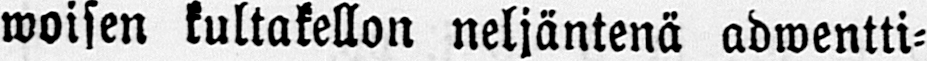woisen kultakellon neljäntenä adwentti-
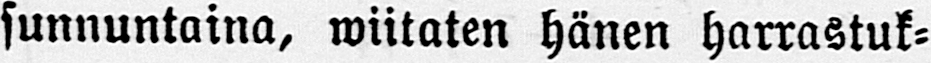sunnuntaina, wiitaten hänen harrastuk-
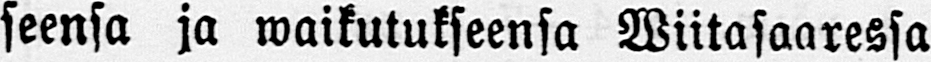seensa ja waikutukseensa Wiitasaaressa
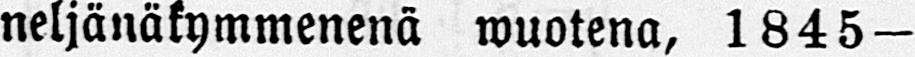neljänäkymmenenä wuotena, 1845 —
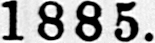1885.
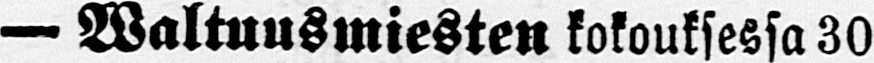— Waltuusmiesten kokouksessa 30
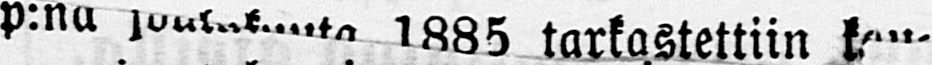p:na tarkastettiin kau-
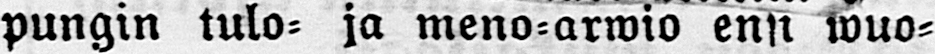pungin tulo- ja meno-arwio ensi wuo-
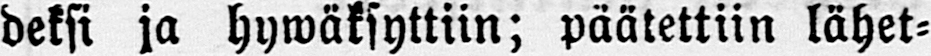deksi ja hywäksyttiin; päätettiin lähet-
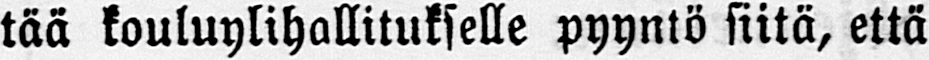tää kouluylihallitukselle pyyntö siitä, että
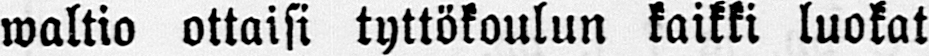waltio ottaisi tyttökoulun kaikki luokat
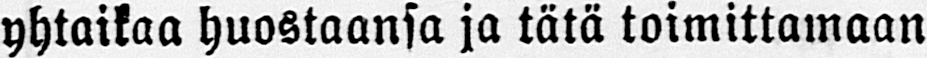yhtaikaa huostaansa ja tätä toimittamaan
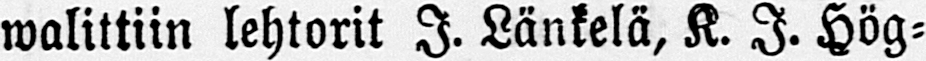walittiin lehtorit I. Länkelä, K. I. Hög-
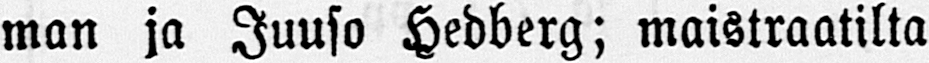man ja Juuso Hedberg; maistraatilta
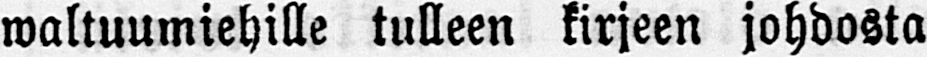waltuumiehille tulleen kirjeen johdosta
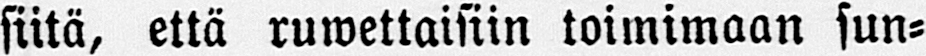siitä, että ruwettaisiin toimimaan sun-
